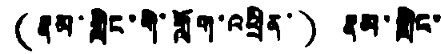(ནམ་གླིང་གི་གློག་འཕྲིན་) རྣམ་གླིང་
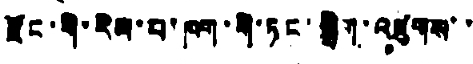རྫོང་གི་རིམ་པ་ཁག་གི་ཏང་སྒྲིག་འཛུགས་་
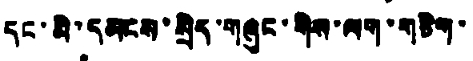དང་མི་དམངས་སྲིད་གཞུང་གིས་ལག་གཅིག་
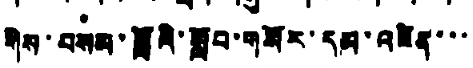གིས་བསམ་བློའི་སློབ་གསོར་དམ་འཛིན་་་
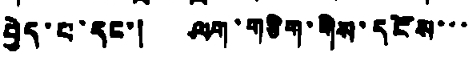བྱེད་པ་དང་། ལག་གཅིག་གིས་དངོས་་་
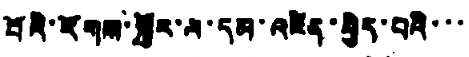པོའི་རོགས་སྐྱོར་ལ་དམ་འཛིན་བྱེད་པའི་་་
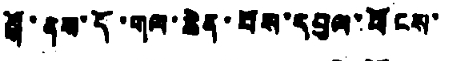སྒོ་ནས་དོ་གལ་ཆེན་པོས་དབུལ་ཕོངས་
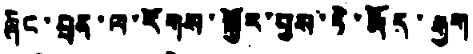ཞིང་བྲན་ལ་རོགས་སྐྱོར་བྱས་ཏེ་རྨོད་རྒྱག
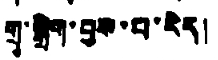གྲྭ་སྒྲིག་བྱས་པ་རེད།
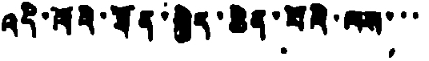འདི་ལོའི་ཐོན་སྐྱེད་ཆེན་པོའི་ལས་་་
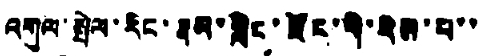འགུལ་སྤེལ་རིང་རྣམ་སླིང་རྫོང་གི་རིམ་པ་་
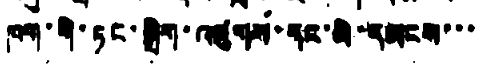ཁག་གི་ཏང་སྒྲིག་འཛུགས་དང་མི་དམངས་་་
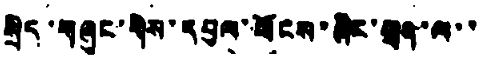སྲིད་གཞུང་གིས་དབུལ་ཕོངས་ཞིང་བྲན་ལ་་
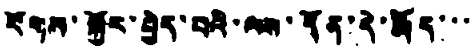རོགས་སྐྱོར་བྱེད་པའི་ལས་དོན་དེ་རྨོད་་་
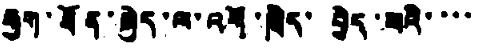རྒྱག་ཐོན་སྐྱེད་ལ་འགོ་ཁྲིད་བྱེད་པའི་་་་
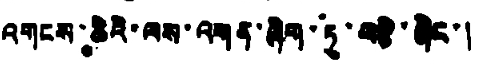འགངས་ཆེའི་ལས་འགན་ཞིག་ཏུ་བརྩི་ཞིང་།
